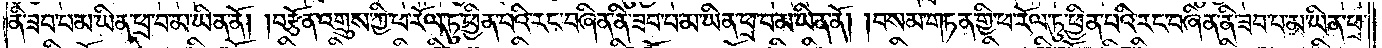ནི་ཟབ་པ་མ་ཡིན་ཕྲ་བ་མ་ཡིན་ནོ། །བརྩོན་འགྲུས་ཀྱི་ཕ་རོལ་ཏུ་ཕྱིན་པའི་རང་བཞིན་ནི་ཟབ་པ་མ་ཡིན་ཕྲ་བ་མ་ཡིན་ནོ། །བསམ་གཏན་གྱི་ཕ་རོལ་ཏུ་ཕྱིན་པའི་རང་བཞིན་ནི་ཟབ་པ་མ་ཡིན་ཕྲ་
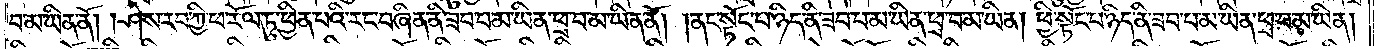བ་མ་ཡིན་ནོ། །ཤེས་རབ་ཀྱི་ཕ་རོལ་ཏུ་ཕྱིན་པའི་རང་བཞིན་ནི་ཟབ་པ་མ་ཡིན་ཕྲ་བ་མ་ཡིན་ནོ། །ནང་སྟོང་པ་ཉིད་ནི་ཟབ་པ་མ་ཡིན་ཕྲ་བ་མ་ཡིན། ཕྱི་སྟོང་པ་ཉིད་ནི་ཟབ་པ་མ་ཡིན་ཕྲ་བ་མ་ཡིན།
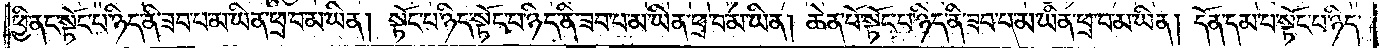ཕྱི་ནང་སྟོང་པ་ཉིད་ནི་ཟབ་པ་མ་ཡིན་ཕྲ་བ་མ་ཡིན། སྟོང་པ་ཉིད་སྟོང་པ་ཉིད་ནི་ཟབ་པ་མ་ཡིན་ཕྲ་བ་མ་ཡིན། ཆེན་པོ་སྟོང་པ་ཉིད་ནི་ཟབ་པ་མ་ཡིན་ཕྲ་བ་མ་ཡིན། དོན་དམ་པ་སྟོང་པ་ཉིད་
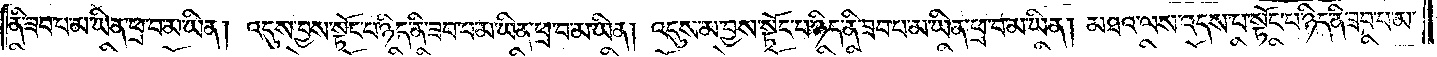ནི་ཟབ་པ་མ་ཡིན་ཕྲ་བ་མ་ཡིན། འདུས་བྱས་སྟོང་པ་ཉིད་ནི་ཟབ་པ་མ་ཡིན་ཕྲ་བ་མ་ཡིན། འདུས་མ་བྱས་སྟོང་པ་ཉིད་ནི་ཟབ་པ་མ་ཡིན་ཕྲ་བ་མ་ཡིན། མཐའ་ལས་འདས་པ་སྟོང་པ་ཉིད་ནི་ཟབ་པ་མ་
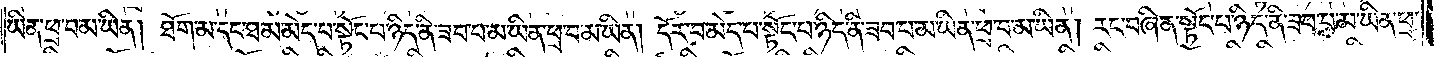ཡིན་ཕྲ་བ་མ་ཡིན། ཐོག་མ་དང་ཐ་མ་མེད་པ་སྟོང་པ་ཉིད་ནི་ཟབ་པ་མ་ཡིན་ཕྲ་བ་མ་ཡིན། དོར་བ་མེད་པ་སྟོང་པ་ཉིད་ནི་ཟབ་པ་མ་ཡིན་ཕྲ་བ་མ་ཡིན། རང་བཞིན་སྟོང་པ་ཉིད་ནི་ཟབ་པ་མ་ཡིན་ཕྲ་
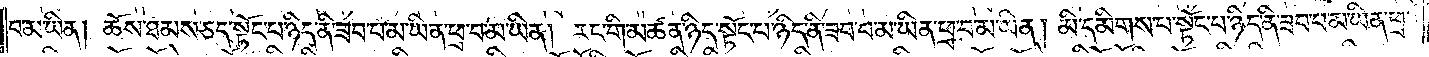བ་མ་ཡིན། ཆོས་ཐམས་ཅད་སྟོང་པ་ཉིད་ནི་ཟབ་པ་མ་ཡིན་ཕྲ་བ་མ་ཡིན། རང་གི་མཚན་ཉིད་སྟོང་པ་ཉིད་ནི་ཟབ་པ་མ་ཡིན་ཕྲ་བ་མ་ཡིན། མི་དམིགས་པ་སྟོང་པ་ཉིད་ནི་ཟབ་པ་མ་ཡིན་ཕྲ་
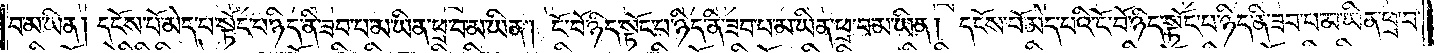བ་མ་ཡིན། དངོས་པོ་མེད་པ་སྟོང་པ་ཉིད་ནི་ཟབ་པ་མ་ཡིན་ཕྲ་བ་མ་ཡིན། ངོ་བོ་ཉིད་སྟོང་པ་ཉིད་ནི་ཟབ་པ་མ་ཡིན་ཕྲ་བ་མ་ཡིན། དངོས་པོ་མེད་པའི་ངོ་བོ་ཉིད་སྟོང་པ་ཉིད་ནི་ཟབ་པ་མ་ཡིན་ཕྲ་བ་
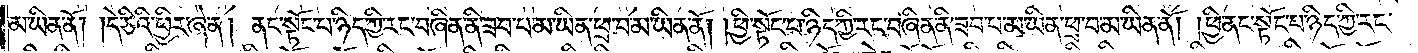མ་ཡིན་ནོ། །དེ་ཅིའི་ཕྱིར་ཞེ་ན། ནང་སྟོང་པ་ཉིད་ཀྱི་རང་བཞིན་ནི་ཟབ་པ་མ་ཡིན་ཕྲ་བ་མ་ཡིན་ནོ། །ཕྱི་སྟོང་པ་ཉིད་ཀྱི་རང་བཞིན་ནི་ཟབ་པ་མ་ཡིན་ཕྲ་བ་མ་ཡིན་ནོ། །ཕྱི་ནང་སྟོང་པ་ཉིད་ཀྱི་རང་
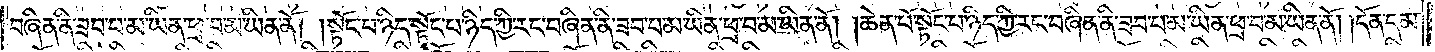བཞིན་ནི་ཟབ་པ་མ་ཡིན་ཕྲ་བ་མ་ཡིན་ནོ། །སྟོང་པ་ཉིད་སྟོང་པ་ཉིད་ཀྱི་རང་བཞིན་ནི་ཟབ་པ་མ་ཡིན་ཕྲ་བ་མ་ཡིན་ནོ། །ཆེན་པོ་སྟོང་པ་ཉིད་ཀྱི་རང་བཞིན་ནི་ཟབ་པ་མ་ཡིན་ཕྲ་བ་མ་ཡིན་ནོ། །དོན་དམ་
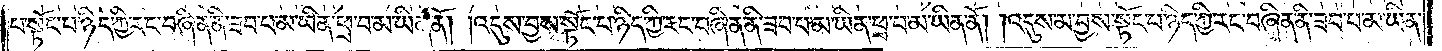པ་སྟོང་པ་ཉིད་ཀྱི་རང་བཞིན་ནི་ཟབ་པ་མ་ཡིན་ཕྲ་བ་མ་ཡིན་ནོ། འདུས་བྱས་སྟོང་པ་ཉིད་ཀྱི་རང་བཞིན་ནི་ཟབ་པ་མ་ཡིན་ཕྲ་བ་མ་ཡིན་ནོ། །འདུས་མ་བྱས་སྟོང་པ་ཉིད་ཀྱི་རང་བཞིན་ནི་ཟབ་པ་མ་ཡིན་
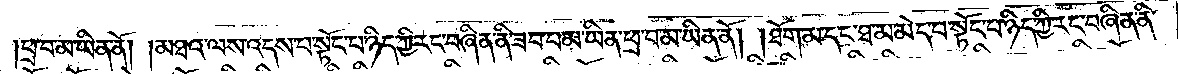ཕྲ་བ་མ་ཡིན་ནོ། །མཐའ་ལས་འདས་པ་སྟོང་པ་ཉིད་ཀྱི་རང་བཞིན་ནི་ཟབ་པ་མ་ཡིན་ཕྲ་བ་མ་ཡིན་ནོ། །ཐོག་མ་དང་ཐ་མ་མེད་པ་སྟོང་པ་ཉིད་ཀྱི་རང་བཞིན་ནི་
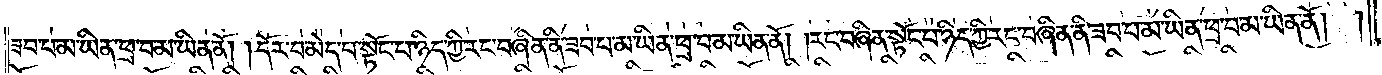ཟབ་པ་མ་ཡིན་ཕྲ་བ་མ་ཡིན་ནོ། །དོར་བ་མེད་པ་སྟོང་པ་ཉིད་ཀྱི་རང་བཞིན་ནི་ཟབ་པ་མ་ཡིན་ཕྲ་བ་མ་ཡིན་ནོ། །རང་བཞིན་སྟོང་པ་ཉིད་ཀྱི་རང་བཞིན་ནི་ཟབ་པ་མ་ཡིན་ཕྲ་བ་མ་ཡིན་ནོ། །
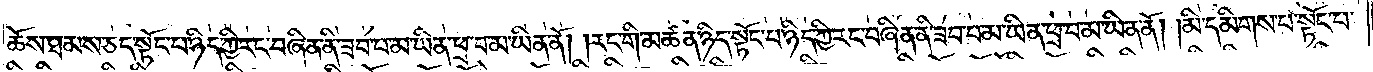ཆོས་ཐམས་ཅད་སྟོང་པ་ཉིད་ཀྱི་རང་བཞིན་ནི་ཟབ་པ་མ་ཡིན་ཕྲ་བ་མ་ཡིན་ནོ། །རང་གི་མཚན་ཉིད་སྟོང་པ་ཉིད་ཀྱི་རང་བཞིན་ནི་ཟབ་པ་མ་ཡིན་ཕྲ་བ་མ་ཡིན་ནོ། །མི་དམིགས་པ་སྟོང་པ་
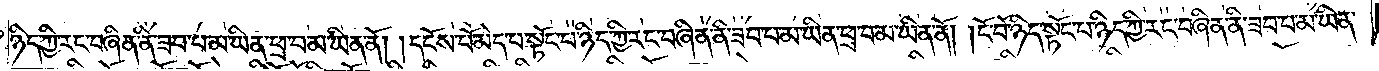ཉིད་ཀྱི་རང་བཞིན་ནི་ཟབ་པ་མ་ཡིན་ཕྲ་བ་མ་ཡིན་ནོ། །དངོས་པོ་མེད་པ་སྟོང་པ་ཉིད་ཀྱི་རང་བཞིན་ནི་ཟབ་པ་མ་ཡིན་ཕྲ་བ་མ་ཡིན་ནོ། །ངོ་བོ་ཉིད་སྟོང་པ་ཉིད་ཀྱི་རང་བཞིན་ནི་ཟབ་པ་མ་ཡིན་
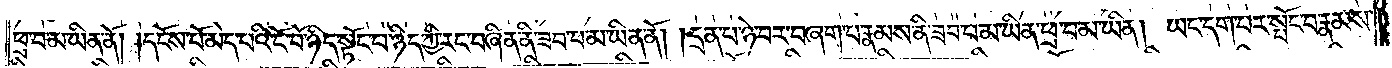ཕྲ་བ་མ་ཡིན་ནོ། །དངོས་པོ་མེད་པའི་ངོ་བོ་ཉིད་སྟོང་པ་ཉིད་ཀྱི་རང་བཞིན་ནི་ཟབ་པ་མ་ཡིན་ཕྲ་བ་མ་ཡིན་ནོ། །དྲན་པ་ཉེ་བར་བཞག་པ་རྣམས་ནི་ཟབ་པ་མ་ཡིན་ཕྲ་བ་མ་ཡིན། ཡང་དག་པར་སྤོང་བ་རྣམས་
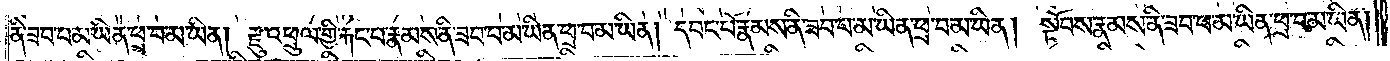ནི་ཟབ་པ་མ་ཡིན་ཕྲ་བ་མ་ཡིན། རྫུ་འཕྲུལ་གྱི་རྐང་པ་རྣམས་ནི་ཟབ་པ་མ་ཡིན་ཕྲ་བ་མ་ཡིན། དབང་པོ་རྣམས་ནི་ཟབ་པ་མ་ཡིན་ཕྲ་བ་མ་ཡིན། སྟོབས་རྣམས་ནི་ཟབ་པ་མ་ཡིན་ཕྲ་བ་མ་ཡིན།
